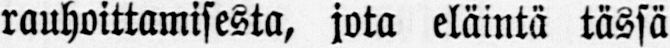rauhoittamisesta, jota eläintä tässä
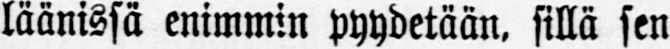läänissä enimmin pyydetään, sillä sen
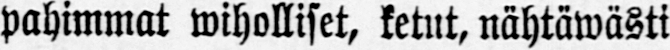pahimmat wiholliset, ketut, nähtäwästi
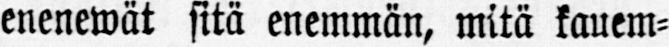enenevät sitä enemmän, mitä kauem-
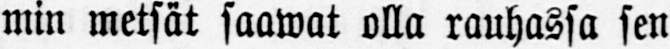min metsät saawat olla rauhassa sen
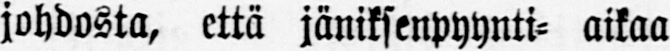johdosta, että jäniksenpyynti- aikaa
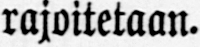rajoitetaan.
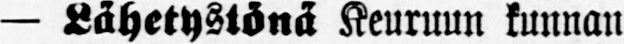— Lähetystönä Keuruun kunnan
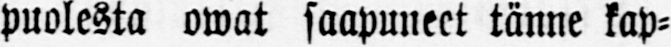puolesta owat saapuneet tänne kap-
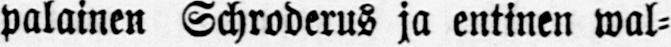palainen Schroderus ja entinen wal-
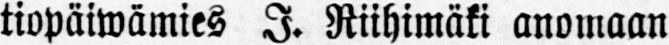tiopäiwämies I. Riihimäki anomaan
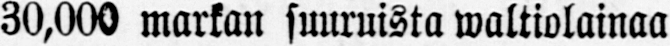30,000 markan suuruista waltiolainaa
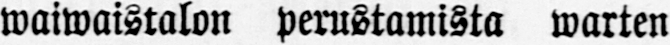waiwaistalon perustamista warten
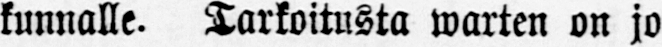kunnalle. Tarkoitusta warten on jo
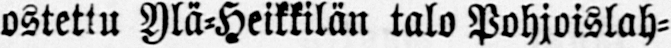ostettu Ylä-Heikkilän talo Pohjoislah-
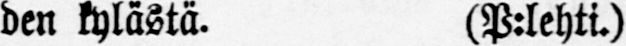den kylästä. (P:lehti.)
